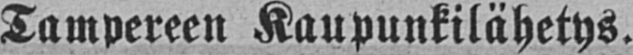Tampereen Kaupunkilähetys.
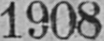1908
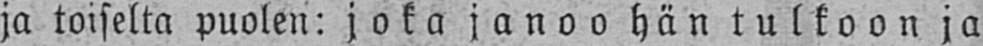ja toiselta puolen: joka janoa hän tulkoon ja
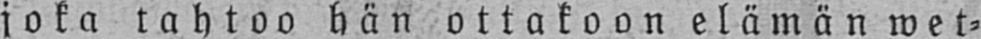joka tahtoo hän ottakoon elämän wet-
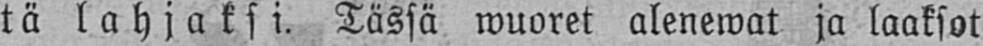tä lahjaksi. Tässä wuoret alenewat ja laaksot
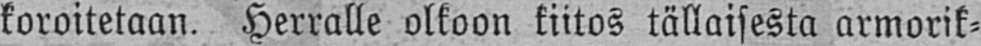koroitetaan. Herralle olkoon kiitos tällaisesta armorik-
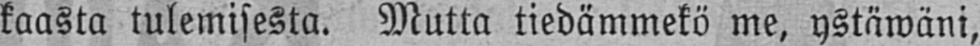kaasta tulemisesta. Mutta tiedämmekö me, ystäwäni,
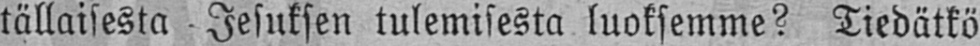tällaisesta Jesuksen tulemisesta luoksemme? Tiedätkö
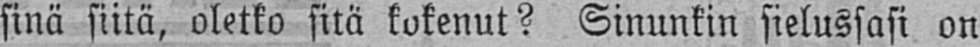sinä siitä, oletko sitä kokenut? Sinunkin sielussasi on
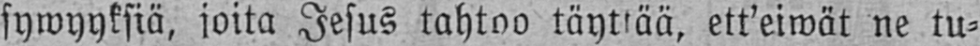sywyyksiä, joita Jesus tahtoo täyttää, ett'eiwät ne tu-
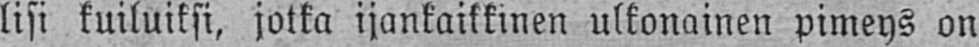lisi kuiluiksi, jotka ijankaikkinen ulkonainen pimeys on
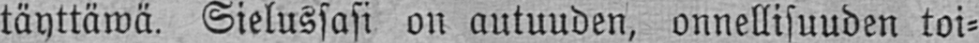käyttäwä. Sielussasi on autuuden, onnellisuuden toi-
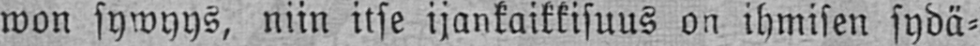won sywyys, niin itse ijankaikkisuus on ihmisen sydä-
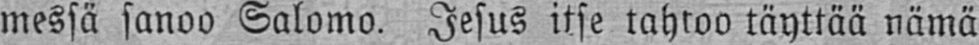messä sanoo Salomo. Jesus itse tahtoo täyttää nämä
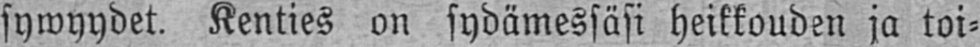sywyydet. Kenties on sydämessäsi heikkouden ja toi-
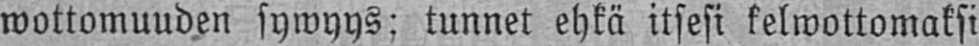wottomuuden sywyys; tunnet ehkä itsesi kelwottomaksi
